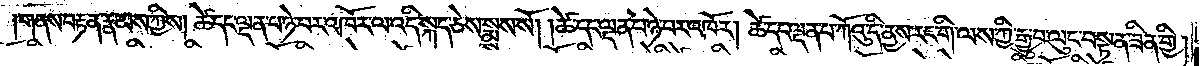།གནས་བརྟན་རྣམས་ཀྱིས། ཚེ་དང་ལྡན་པ་ཉེ་བར་འཁོར་ལ་འདི་སྐད་ཅེས་སྨྲས་སོ། །ཚེ་དང་ལྡན་པ་ཉེ་བར་འཁོར། །ཚེ་དང་ལྡན་པ་ཀོའུ་དི་ནྱས་རང་གི་ལས་ཀྱི་རྒྱུ་བ་ལུང་བསྟན་ཟིན་གྱི།
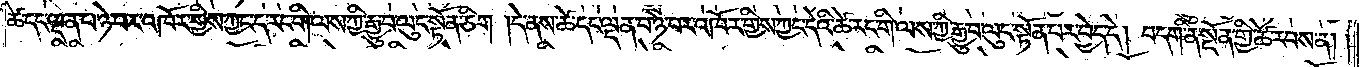ཚེ་དང་ལྡན་པ་ཉེ་བར་འཁོར་གྱིས་ཀྱང་ད་རང་གི་ལས་ཀྱི་རྒྱུ་བ་ལུང་སྟོན་ཅིག །དེ་ནས་ཚེ་དང་ལྡན་པ་ཉེ་བར་འཁོར་གྱིས་ཀྱང་དེའི་ཚེ་རང་གི་ལས་ཀྱི་རྒྱུ་བ་ལུང་སྟོན་པར་བྱེད་དེ། བདག་ནི་སྔོན་གྱི་ཚེ་རབས་ན། །
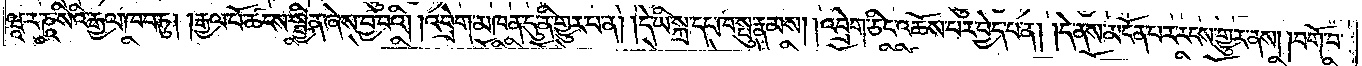ཝཱ་ར་ཎཱ་སིའི་རྒྱལ་ཁབ་ཏུ། །རྒྱལ་པོ་ཚངས་སྦྱིན་ཞེས་བྱ་བའི། །འབྲེག་མཁན་དུ་ནི་གྱུར་པ་ན། །དེ་ཡི་སྐྲ་དང་ཁ་སྤུ་རྣམས། །འབྲེག་ཅིང་འཆོས་པར་བྱེད་པ་ན། །དེ་ནས་མངོན་པར་རངས་གྱུར་ནས། །བགོ་བ་
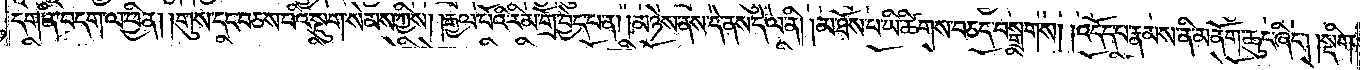དག་ནི་བདག་ལ་ཕྱིན། །གུས་དང་བཅས་པའི་སྡུག་སེམས་ཀྱིས། །རྒྱལ་པོའི་རིམ་གྲོ་བྱེད་པ་ན། །མཉེས་ནས་དེ་ནས་དེ་ལ་ནི། །མ་ཐོས་པ་ཡི་ཚིགས་བཅད་བསྒྲགས། །འདོད་པ་རྣམས་ནི་མནོག་ཆུང་ཞིང༌། །སྡིག་
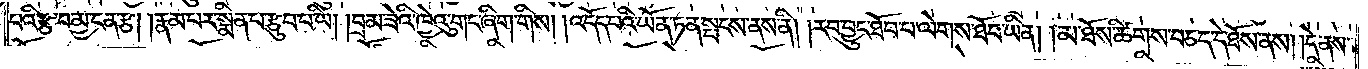པའི་རྩ་བ་མྱ་ངན་རྩ། །རྣམ་པར་སྨིན་པ་རྩུབ་པ་ཡི། །བྲམ་ཟེའི་ཁྱེའུ་གང་ཞིག་གིས། །འདོད་པའི་ཡོན་ཏན་སྤངས་ནས་ནི། །རབ་བྱུང་ཐོབ་པ་ལེགས་ཐོབ་ཡིན། །མ་ཐོས་ཚིགས་བཅད་དེ་ཐོས་ནས། །དེ་ནས་
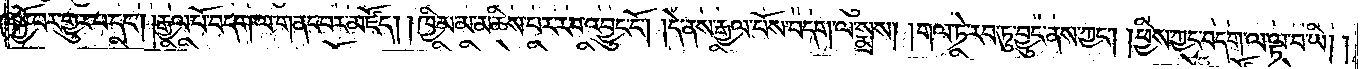སྐྱོ་བར་གྱུར་པ་དང༌། །རྒྱལ་པོ་བདག་ལ་གནང་བར་མཛོད། །ཁྱིམ་མ་མཆིས་པར་རབ་འབྱུང་ངོ༌། །དེ་ནས་རྒྱལ་པོས་བདག་ལ་སྨྲས། །གལ་ཏེ་རབ་ཏུ་བྱུང་ནས་ཀྱང༌། །ཕྱིས་ཀྱང་བདག་ལ་ལྟ་བ་ཡི། །
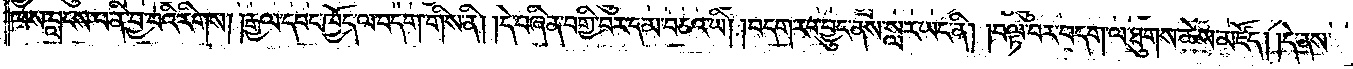ཁས་བླངས་པ་ནི་བྱ་བའི་རིགས། །རྒྱལ་དབང་ཁྱོད་ལ་བདག་གིས་ནི། །དེ་བཞིན་བགྱི་བར་དམ་བཅའ་ཡི། །བདག་རབ་བྱུང་ནས་སླར་ཡང་ནི། །བལྟ་བར་བདག་ལ་ཐུགས་ཆེས་མཛོད། །དེ་ནས་
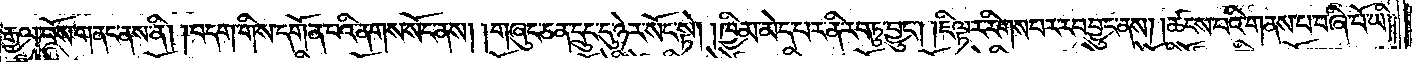རྒྱལ་པོས་གནང་ནས་ནི། །བདག་གིས་དགོན་པའི་ནགས་སོང་ནས། །གཞུང་ཅན་དྲུང་དུ་ཉེར་སོང་སྟེ། །ཁྱིམ་མེད་པར་ནི་རབ་ཏུ་བྱུང༌། །ཇི་ལྟར་རིགས་པར་རབ་བྱུང་ནས། །ཚངས་པའི་གནས་པ་བཞི་པོ་ཡི། །
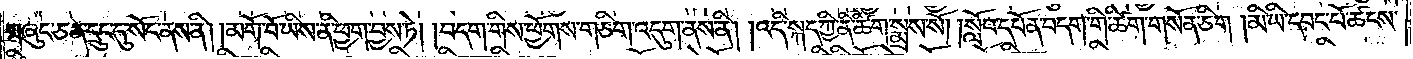གཞུང་ཅན་དྲུང་དུ་སོང་ནས་ནི། །མགོ་བོ་ཡིས་ནི་ཕྱག་བྱས་ཏེ། །བདག་གིས་ཕྱོགས་གཅིག་འདུག་ནས་ནི། །འདི་སྐད་ཀྱི་ནི་ཚིག་སྨྲས་སོ། །སློབ་དཔོན་བདག་གི་ཚིག་གསོན་ཅིག །མི་ཡི་དབང་པོ་ཚངས་
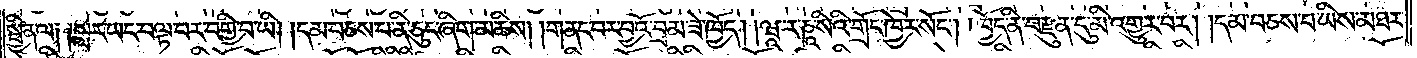སྦྱིན་ལ༑ ༑སླར་ཡང་བལྟ་བར་བགྱི་བ་ཡི། །དམ་བཅས་པ་ནི་ཅུང་ཞིག་མཆིས། །གནང་བར་བྱའོ་བྲམ་ཟེ་ཁྱོད། །ཝཱ་ར་ཎཱ་སིའི་གྲོང་ཁྱེར་སོང༌། །ཁྱོད་ནི་བརྫུན་དུ་མི་འགྱུར་བར། །དམ་བཅས་པ་ཡིས་མཐར་
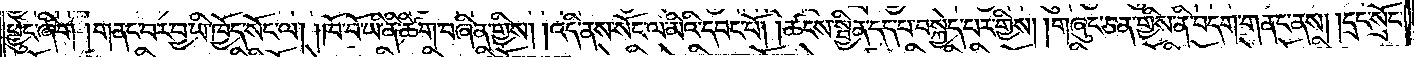ཕྱུང་ཞིག །གནང་བར་བྱ་ཡི་ཁྱོད་སོང་ལ། །ཁོ་བོ་ཡི་ནི་ཚིག་བཞིན་གྱིས། །འདི་ནས་སོང་ལ་མིའི་དབང་པོ། །ཚངས་སྦྱིན་དད་པ་བསྐྱེད་པར་གྱིས། །གཞུང་ཅན་གྱིས་ནི་བདག་གནང་ནས། །དྲང་སྲོང་
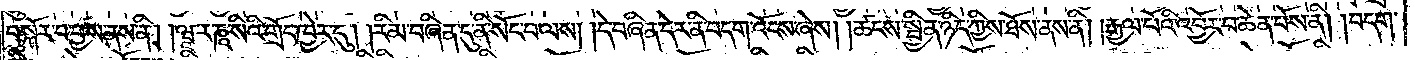བསྐོར་བ་བྱས་ནས་ནི། །ཝཱ་ར་ཎཱ་སིའི་གྲོང་ཁྱེར་དུ། །རིམ་བཞིན་དུ་ནི་སོང་བ་ལས། །དེ་བཞིན་དེར་ནི་བདག་འོངས་ཞེས། །ཚངས་སྦྱིན་ཉིད་ཀྱིས་ཐོས་ནས་ནི། །རྒྱལ་པོའི་འབྱོར་བ་ཆེན་པོས་ནི། །བདག་
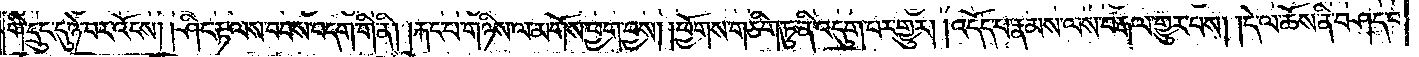གི་དྲུང་དྲུ་ཉེ་བར་འོངས། །ཤིང་རྟ་ལས་བབས་བདག་གི་ནི། །རྐང་པ་གཉིས་ལ་མགོས་ཕྱག་བྱས། །ཕྱོགས་གཅིག་ཏུ་ནི་འདུག་པར་གྱུར། །འདོད་པ་རྣམས་ལས་བརྒལ་གྱུར་པས། །དེ་ལ་ཆོས་ནི་བཤད་པ་
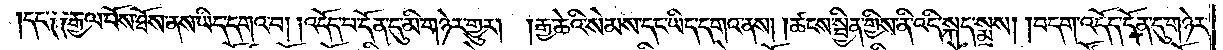དང༌༑ ༑རྒྱལ་པོས་ཐོས་ནས་ཡིད་དགའ་བ། །འདོད་པ་དོན་དུ་མི་གཉེར་གྱུར། །རྒྱ་ཆེའི་སེམས་དང་ཡིད་དགའ་ནས། །ཚངས་སྦྱིན་གྱིས་ནི་འདི་སྐད་སྨྲས། །བདག་འདོད་དོན་དུ་གཉེར་
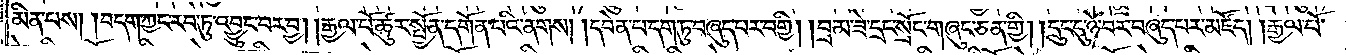མིན་པས། །བདག་ཀྱང་རབ་ཏུ་འབྱུང་བར་བྱ། །རྒྱལ་པོ་ཚུར་སྤྱོན་དགོན་པའི་ནགས། །དབེན་པ་དག་ཏུ་བཞུད་པར་བགྱི། །བྲམ་ཟེ་དྲང་སྲོང་གཞུང་ཅན་གྱི། །དྲུང་དུ་ཉེ་བར་བཞུད་པར་མཛོད། །རྒྱལ་པོ་
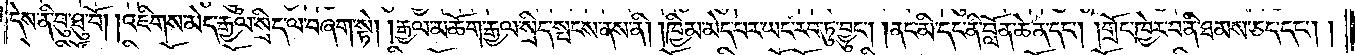དེས་ནི་བུ་ཐུ་བོ། །འཇིགས་མེད་རྒྱལ་སྲིད་ལ་བཞག་སྟེ། །རྒྱལ་མཆོག་རྒྱལ་སྲིད་སྤངས་ནས་ནི། །ཁྱིམ་མེད་པར་ཡང་རབ་ཏུ་བྱུང༌། །ནང་མི་དང་ནི་བློན་ཆེན་དང༌། །གྲོང་ཁྱེར་བ་ནི་ཐམས་ཅད་དང༌། །
